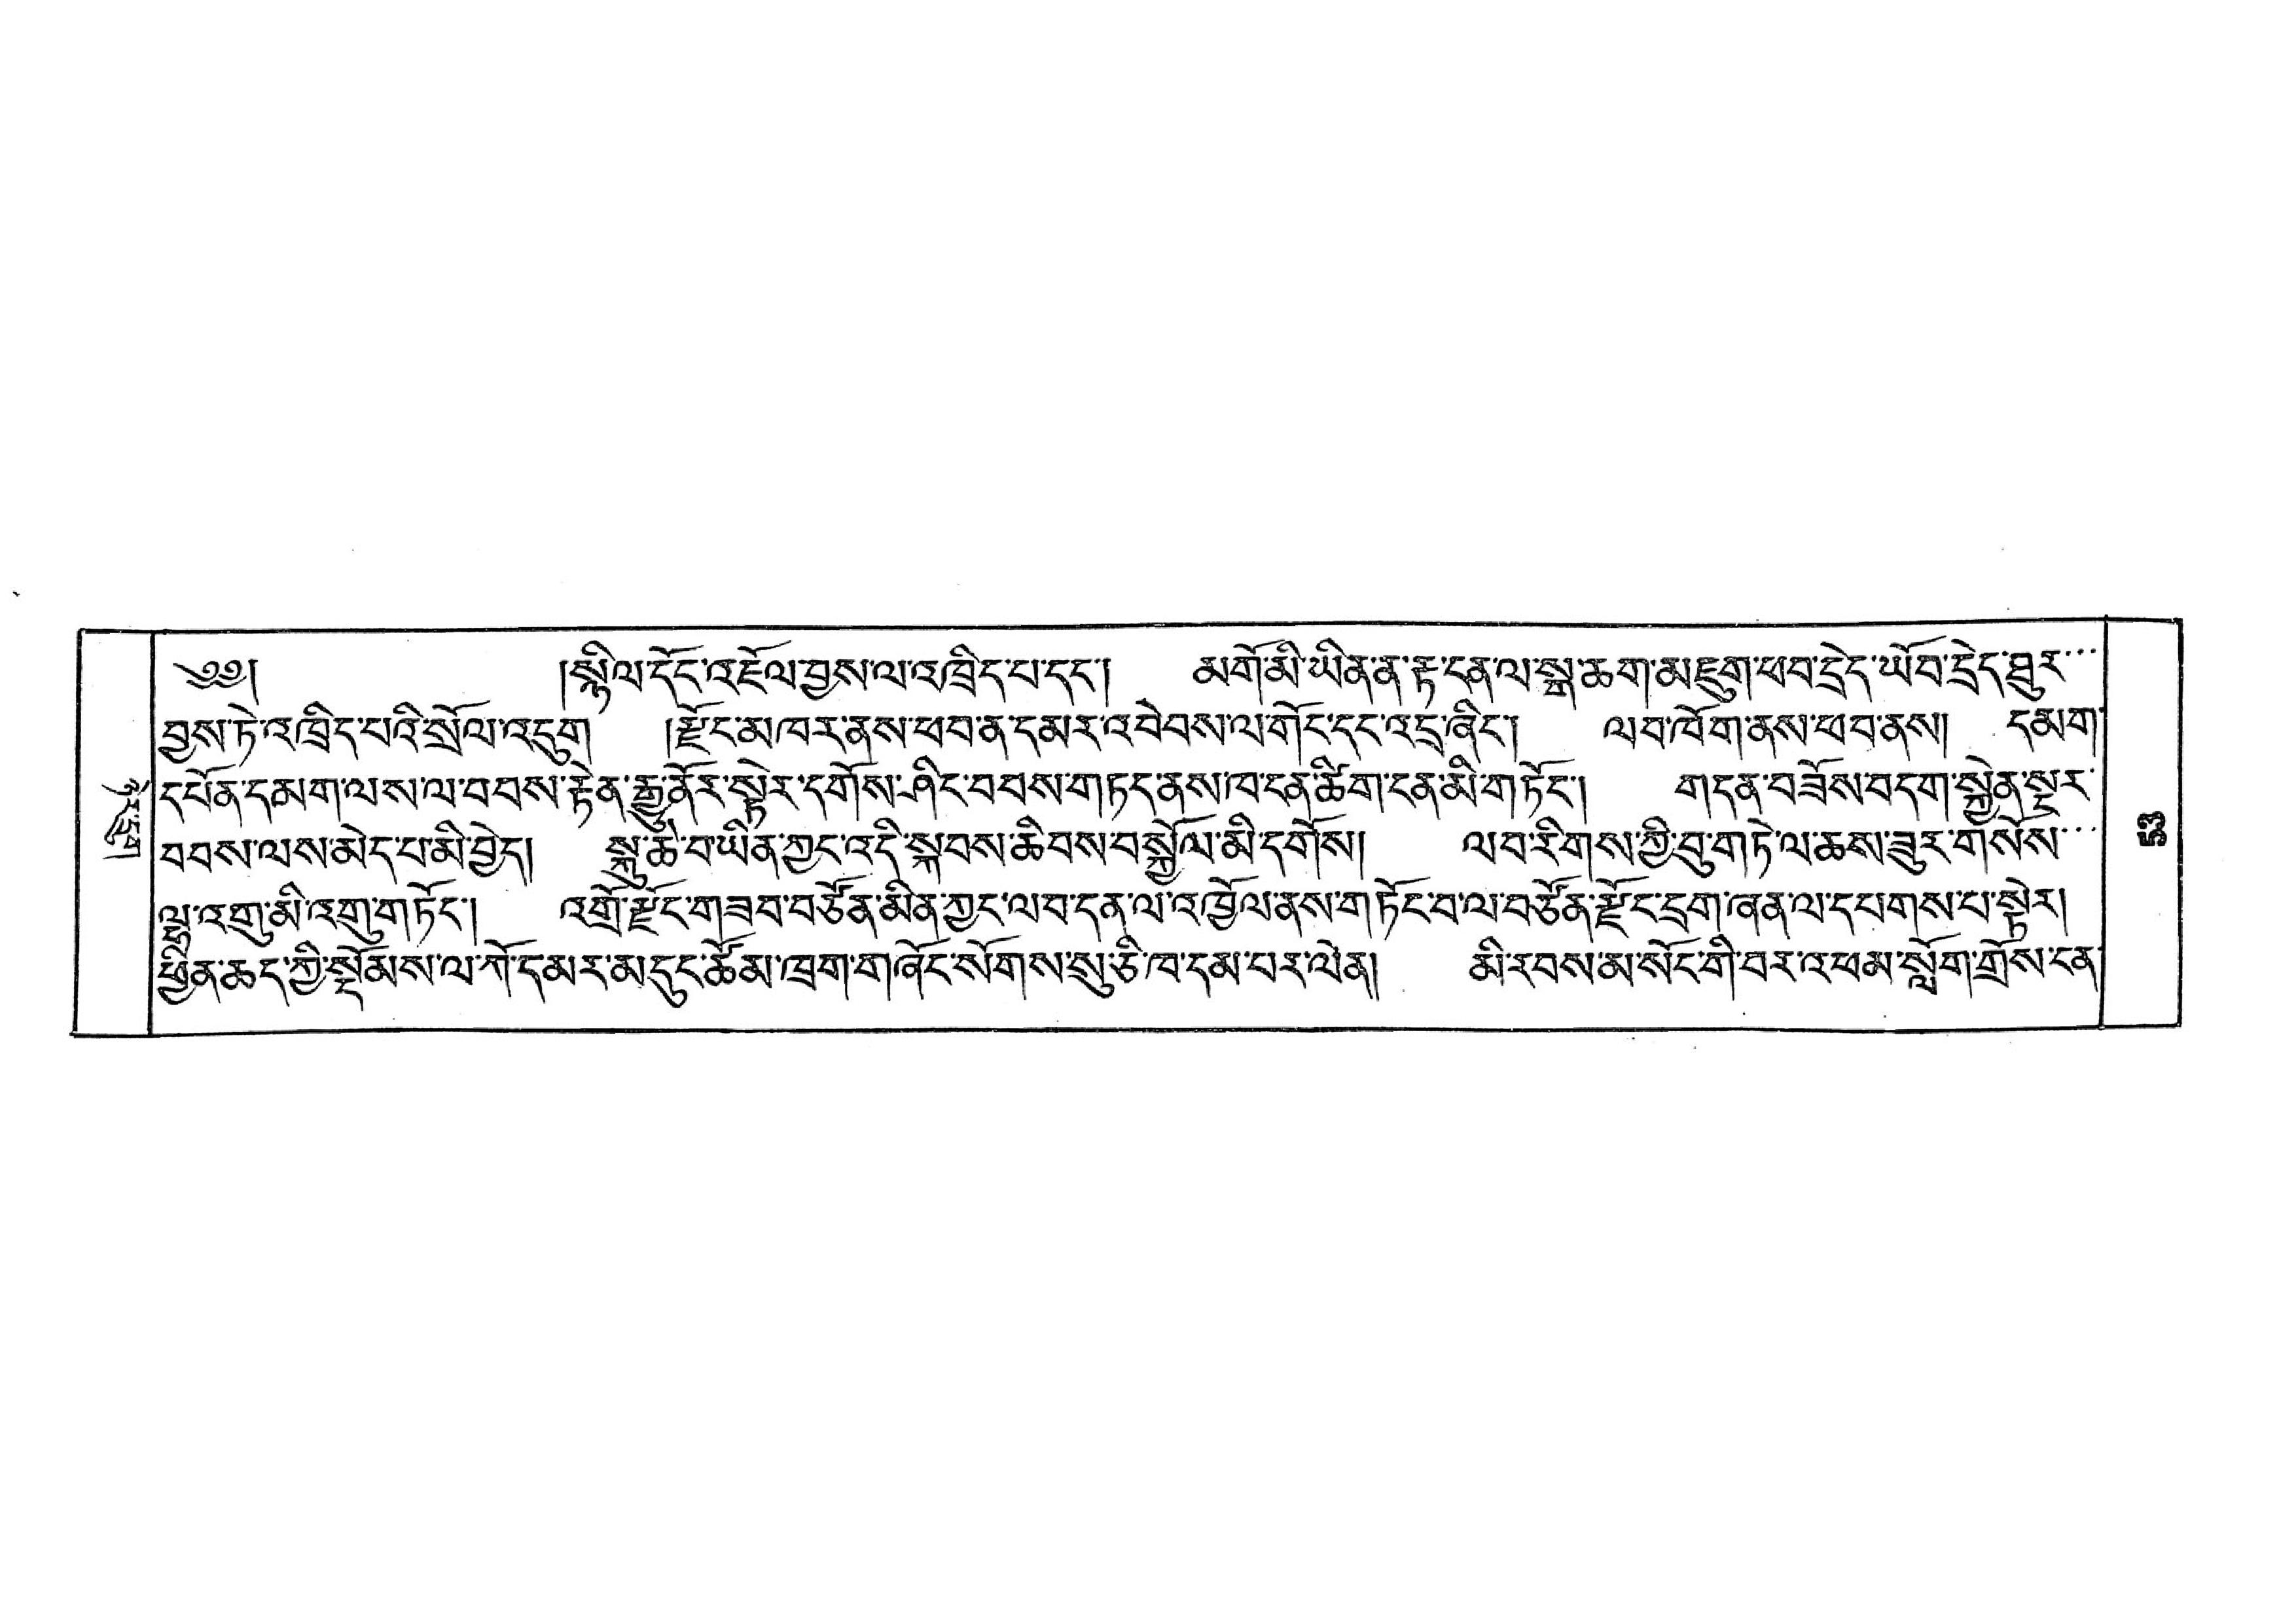ཉེར་དྲུག
༄༅།  སྙིལ་དོང་འཇོལ་བྱས་ལ་འཁྲིད་པ་དང་། མགོ་མི་ཡིན་ན་རྟ་ངན་ལ་སྒ་ཆག་མཇུག་ཕབ་དྲེད་ཡོབ་དྲེད་ཐུར་་་
བྱས་ཏེ་འཁྲིད་པའི་སྲོལ་འདུག །རྫོང་མཁར་ནས་ཕབ་ན་དམར་འབེབས་ལ་གོང་དང་འདྲ་ཞིང་། ལབ་ཁོག་ནས་ཕབ་ནས། དམག་
དཔོན་དམག་ལས་ལ་བབས་རྟེན་རྒྱུ་ནོར་སྟེར་དགོས་ཤིང་བབས་གཏང་ནས་ཁ་ངན་ཚིག་ངན་མི་གཏོང་། གདན་བཟོས་བདག་སྐྱེན་སྔར་
བབས་ལས་མེད་པ་མི་བྱེད། སྐུ་ཆེ་བ་ཡིན་ཀྱང་འདི་སྐབས་ཆིབས་བསྐྱོལ་མི་དགོས། ལབ་རིགས་ཀྱི་བུ་གཏེ་ལ་ཆས་ཟུར་གསོས་་་
ལྷ་འགུ་མི་འགུ་གཏོང་། འགྲོ་རྫོང་གཟབ་བཙོན་མིན་ཀྱང་ལབ་དན་ལ་འཁྱོལ་ནས་གཏོང་བ་ལ་བཙོན་རྫོང་དྲག་ཞན་ལ་དཔགས་པ་སྟེར།
ཕྱིན་ཆད་ཀྱི་སྡོམས་ལ་ཀོ་དམར་མདུང་ཚོམ་ཁྲག་གཞོང་སོགས་སུ་ཅི་ཁ་དམ་པར་ལེན། མི་རབས་མ་སོང་གི་བར་འཕམ་སློག་གྲོས་ངན་
